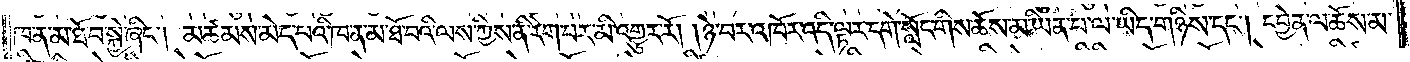ཁ་ན་མ་ཐོ་བ་སྐྱེ་ཞིང༌། མཚམས་མེད་པའི་ཁ་ན་མ་ཐོ་བའི་ལས་ཀྱིས་ནི་རེག་པར་མི་འགྱུར་རོ། །ཉེ་བར་འཁོར་འདི་ལྟར་དགེ་སློང་གིས་ཆོས་མ་ཡིན་པ་ལ་ཡིད་གཉིས་དང༌། དབྱེན་ལ་ཆོས་མ་
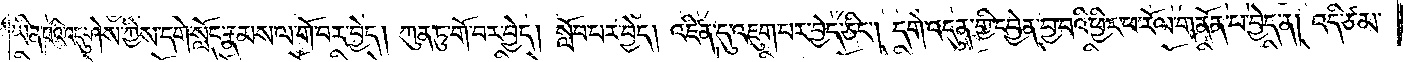ཡིན་པའི་འདུ་ཤེས་ཀྱིས་དགེ་སློང་རྣམས་ལ་གོ་བར་བྱེད། ཀུན་ཏུ་གོ་བར་བྱེད། སློབ་པར་བྱེད། འཛིན་དུ་འཇུག་པར་བྱེད་ཅིང༌། དགེ་འདུན་གྱི་དབྱེན་བྱ་བའི་ཕྱིར་ཕ་རོལ་གནོན་པ་བྱེད་ན། འདི་ཙམ་
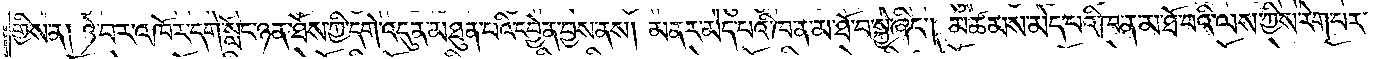གྱིས་ན། ཉེ་བར་འཁོར་དགེ་སློང་ཉན་ཐོས་ཀྱི་དགེ་འདུན་མཐུན་པའི་དབྱེན་བྱས་ནས། མནར་མེད་པའི་ཁ་ན་མ་ཐོ་བ་སྐྱེ་ཞིང༌། མཚམས་མེད་པའི་ཁ་ན་མ་ཐོ་བའི་ལས་ཀྱིས་རེག་པར་
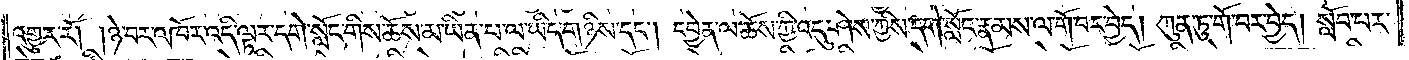འགྱུར་རོ། །ཉེ་བར་འཁོར་འདི་ལྟར་དགེ་སློང་གིས་ཆོས་མ་ཡིན་པ་ལ་ཡིད་གཉིས་དང༌། དབྱེན་ལ་ཆོས་ཀྱི་འདུ་ཤེས་ཀྱིས་དགེ་སློང་རྣམས་ལ་གོ་བར་བྱེད། ཀུན་ཏུ་གོ་བར་བྱེད། སློབ་པར་
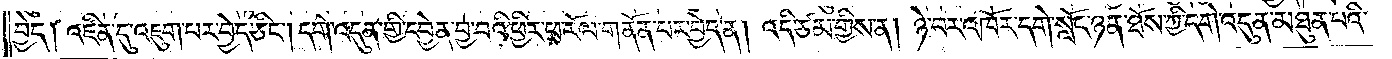བྱེད། འཛིན་དུ་འཇུག་པར་བྱེད་ཅིང༌། དགེ་འདུན་གྱི་དབྱེན་བྱ་བའི་ཕྱིར་ཕ་རོལ་གནོན་པར་བྱེད་ན། འདི་ཙམ་གྱིས་ན། ཉེ་བར་འཁོར་དགེ་སློང་ཉན་ཐོས་ཀྱི་དགེ་འདུན་མཐུན་པའི་
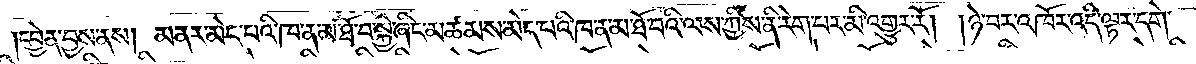།དབྱེན་བྱས་ནས། མནར་མེད་པའི་ཁ་ན་མ་ཐོ་བ་སྐྱེ་ཞིང་མཚམས་མེད་པའི་ཁ་ན་མ་ཐོ་བའི་ལས་ཀྱིས་ནི་རེག་པར་མི་འགྱུར་རོ། །ཉེ་བར་འཁོར་འདི་ལྟར་དགེ་
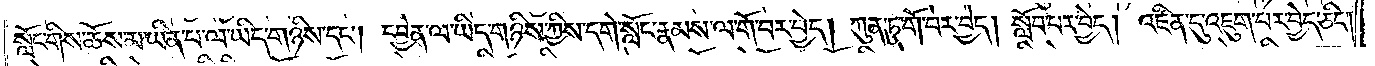སློང་གིས་ཆོས་མ་ཡིན་པ་ལ་ཡིད་གཉིས་དང༌། དབྱེན་ལ་ཡིད་གཉིས་ཀྱིས་དགེ་སློང་རྣམས་ལ་གོ་བར་བྱེད། ཀུན་ཏུ་གོ་བར་བྱེད། སློབ་པར་བྱེད། འཛིན་དུ་འཇུག་པར་བྱེད་ཅིང༌།
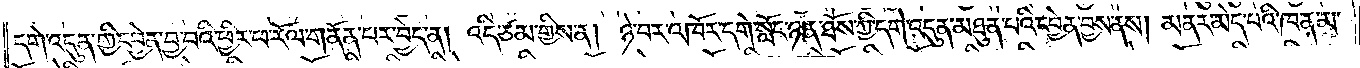དགེ་འདུན་གྱི་དབྱེན་བྱ་བའི་ཕྱིར་ཕ་རོལ་གནོན་པར་བྱེད་ན། འདི་ཙམ་གྱིས་ན། ཉེ་བར་འཁོར་དགེ་སློང་ཉན་ཐོས་ཀྱི་དགེ་འདུན་མཐུན་པའི་དབྱེན་བྱས་ནས། མནར་མེད་པའི་ཁ་ན་མ་
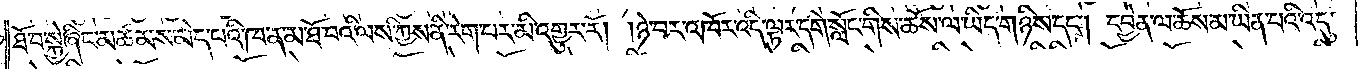ཐོ་བ་སྐྱེ་ཞིང་མཚམས་མེད་པའི་ཁ་ན་མ་ཐོ་བའི་ལས་ཀྱིས་ནི་རེག་པར་མི་འགྱུར་རོ། །ཉེ་བར་འཁོར་འདི་ལྟར་དགེ་སློང་གིས་ཆོས་ལ་ཡིད་གཉིས་དང༌། དབྱེན་ལ་ཆོས་མ་ཡིན་པའི་འདུ་
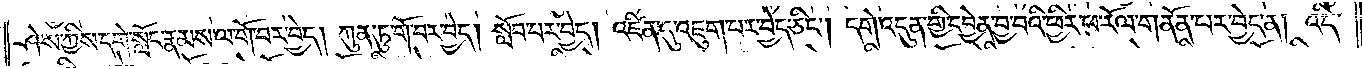ཤེས་ཀྱིས་དགེ་སློང་རྣམས་ལ་གོ་བར་བྱེད། ཀུན་ཏུ་གོ་བར་བྱེད། སློབ་པར་བྱེད། འཛིན་དུ་འཇུག་པར་བྱེད་ཅིང༌། དགེ་འདུན་གྱི་དབྱེན་བྱ་བའི་ཕྱིར་ཕ་རོལ་གནོན་པར་བྱེད་ན། འདི་
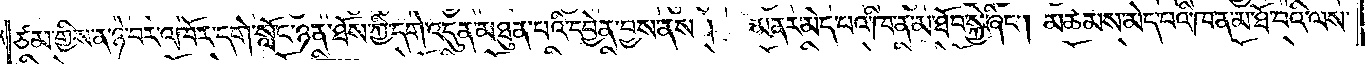ཙམ་གྱིས་ན་ཉེ་བར་འཁོར་དགེ་སློང་ཉན་ཐོས་ཀྱི་དགེ་འདུན་མཐུན་པའི་དབྱེན་བྱས་ནས། མནར་མེད་པའི་ཁ་ན་མ་ཐོ་བ་སྐྱེ་ཞིང༌། མཚམས་མེད་པའི་ཁ་ན་མ་ཐོ་བའི་ལས་
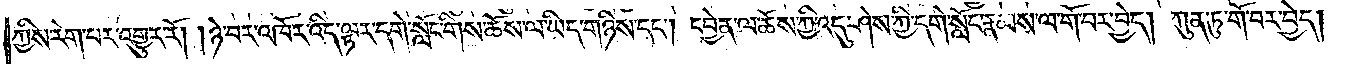ཀྱིས་རེག་པར་འགྱུར་རོ། །ཉེ་བར་འཁོར་འདི་ལྟར་དགེ་སློང་གིས་ཆོས་ལ་ཡིད་གཉིས་དང༌། དབྱེན་ལ་ཆོས་ཀྱི་འདུ་ཤེས་ཀྱི་དགེ་སློང་རྣམས་ལ་གོ་བར་བྱེད། ཀུན་ཏུ་གོ་བར་བྱེད།
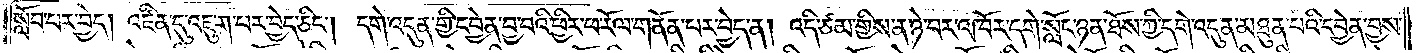སློབ་པར་བྱེད། འཛིན་དུ་འཇུག་པར་བྱེད་ཅིང༌། དགེ་འདུན་གྱི་དབྱེན་བྱ་བའི་ཕྱིར་ཕ་རོལ་གནོན་པར་བྱེད་ན། འདི་ཙམ་གྱིས་ན་ཉེ་བར་འཁོར་དགེ་སློང་ཉན་ཐོས་ཀྱི་དགེ་འདུན་མཐུན་པའི་དབྱེན་བྱས་
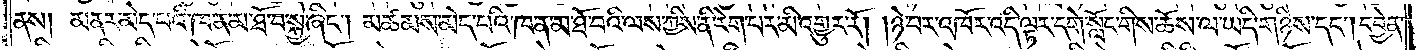ནས། མནར་མེད་པའི་ཁ་ན་མ་ཐོ་བ་སྐྱེ་ཞིང༌། མཚམས་མེད་པའི་ཁ་ན་མ་ཐོ་བའི་ལས་ཀྱིས་ནི་རེག་པར་མི་འགྱུར་རོ། །ཉེ་བར་འཁོར་འདི་ལྟར་དགེ་སློང་གིས་ཆོས་ལ་ཡིད་གཉིས་དང༌། དབྱེན་
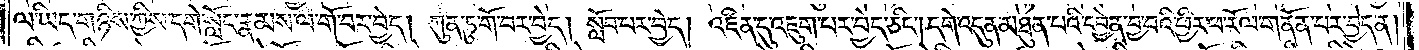ལ་ཡིད་གཉིས་ཀྱིས་དགེ་སློང་རྣམས་ལ་གོ་བར་བྱེད། ཀུན་ཏུ་གོ་བར་བྱེད། སློབ་པར་བྱེད། འཛིན་དུ་འཇུག་པར་བྱེད་ཅིང༌། དགེ་འདུན་མཐུན་པའི་དབྱེན་བྱ་བའི་ཕྱིར་ཕ་རོལ་གནོན་པར་བྱེད་ན།
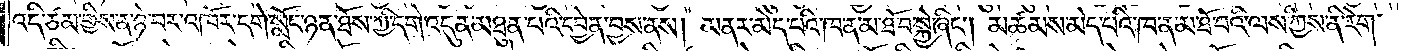འདི་ཙམ་གྱིས་ན་ཉེ་བར་འཁོར་དགེ་སློང་ཉན་ཐོས་ཀྱི་དགེ་འདུན་མཐུན་པའི་དབྱེན་བྱས་ནས། མནར་མེད་པའི་ཁ་ན་མ་ཐོ་བ་སྐྱེ་ཞིང༌། མཚམས་མེད་པའི་ཁ་ན་མ་ཐོ་བའི་ལས་ཀྱིས་ནི་རེག་
